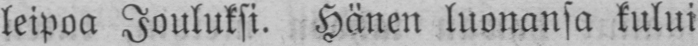leipoa Jouluksi. Hänen luonansa kului
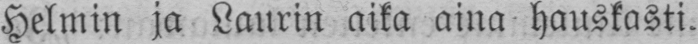Helmin ja Laurin aika aina hauskasti.
